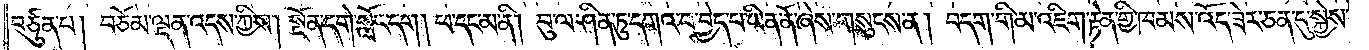བཙུན་པ། བཅོམ་ལྡན་འདས་ཀྱིས། སྔོན་དགེ་སློང་དག །ཕ་དང་མ་ནི། བུ་ལ་ཤིན་ཏུ་དགའ་བ་བྱེད་པ་ཡིན་ནོ་ཞེས་གསུངས་ན། བདག་གི་མ་འཇིག་རྟེན་གྱི་ཁམས་འོད་ཟེར་ཅན་དུ་སྐྱེས་
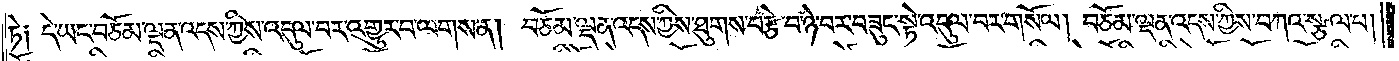ཏེ༑ དེ་ཡང་བཅོམ་ལྡན་འདས་ཀྱིས་འདུལ་བར་འགྱུར་བ་ལགས་ན། བཅོམ་ལྡན་འདས་ཀྱིས་ཐུགས་བརྩེ་བ་ཉེ་བར་བཟུང་སྟེ་འདུལ་བར་གསོལ། བཅོམ་ལྡན་འདས་ཀྱིས་བཀའ་སྩལ་པ།
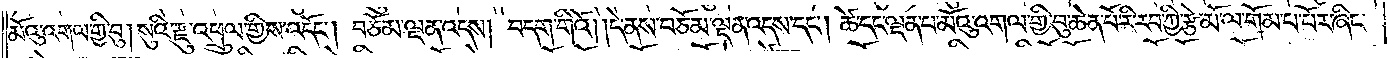མོའུ་འགལ་གྱི་བུ། སུའི་རྫུ་འཕྲུལ་གྱིས་འདོང༌། བཅོམ་ལྡན་འདས། བདག་གིའོ། །དེ་ནས་བཅོམ་ལྡན་འདས་དང༌། ཚེ་དང་ལྡན་པ་མོའུ་འགལ་གྱི་བུ་ཆེན་པོ་རི་རབ་ཀྱི་རྩེ་མོ་ལ་གོམ་པ་པོར་ཞིང་
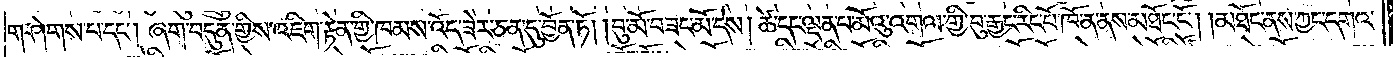གཤེགས་པ་དང༌། ཞག་བདུན་གྱིས་འཇིག་རྟེན་གྱི་ཁམས་འོད་ཟེར་ཅན་དུ་བྱོན་ཏོ། །བུ་མོ་བཟང་མོ་དེས། ཚེ་དང་ལྡན་པ་མོའུ་འགལ་གྱི་བུ་རྒྱང་རིང་པོ་ཁོ་ན་ནས་མཐོང་ངོ༌། །མཐོང་ནས་ཀྱང་དགའ་
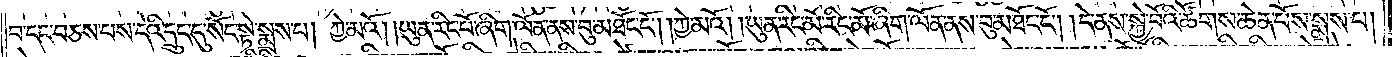བ་དང་བཅས་པས་དེའི་དྲུང་དུ་སོང་སྟེ་སྨྲས་པ། ཀྱེ་མའོ། །ཡུན་རིང་པོ་ཞིག་ལོན་ནས་བུ་མཐོང་ངོ༌། །ཀྱེ་མའོ། །ཡུན་རིང་མོ་རིང་མོ་ཞིག་ལོན་ནས་བུ་མཐོང་ངོ༌། །དེ་ནས་སྐྱེ་བོའི་ཚོགས་ཆེན་པོས་སྨྲས་པ།
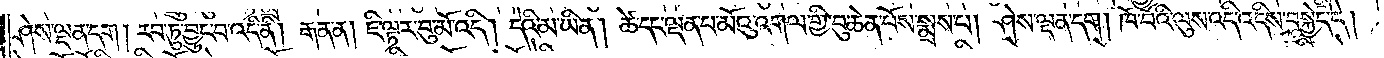ཤེས་ལྡན་དག །རབ་ཏུ་བྱུང་བ་འདི་ནི། རྒན་ན། ཇི་ལྟར་བུ་མོ་འདི། དེའི་མ་ཡིན། ཚེ་དང་ལྡན་པ་མོའུ་འགལ་གྱི་བུ་ཆེན་པོས་སྨྲས་པ། ཤེས་ལྡན་དག །ཁོ་བོའི་ལུས་འདི་འདིས་བསྐྱེད་དེ།
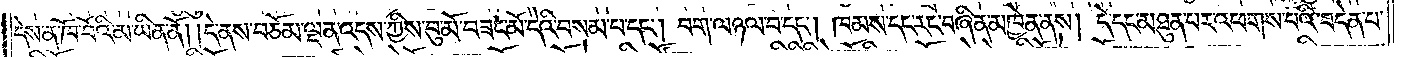དེས་ན་ཁོ་བོའི་མ་ཡིན་ནོ། །དེ་ནས་བཅོམ་ལྡན་འདས་ཀྱིས་བུ་མོ་བཟང་མོ་དེའི་བསམ་པ་དང༌། བག་ལ་ཉལ་བ་དང༌། ཁམས་དང་རང་བཞིན་མཁྱེན་ནས། དེ་དང་མཐུན་པར་འཕགས་པའི་བདེན་པ་
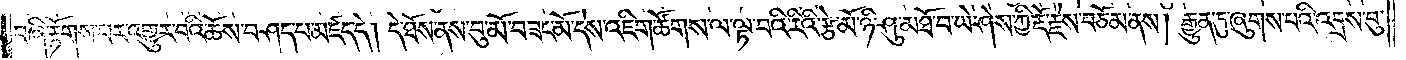བཞི་རྟོགས་པར་འགྱུར་བའི་ཆོས་བཤད་པ་མཛད་དེ། དེ་ཐོས་ནས་བུ་མོ་བཟང་མོ་དེས་འཇིག་ཚོགས་ལ་ལྟ་བའི་རིའི་རྩེ་མོ་ཉི་ཤུ་མཐོ་བ་ཡེ་ཤེས་ཀྱི་རྡོ་རྗེས་བཅོམ་ནས། རྒྱུན་དུ་ཞུགས་པའི་འབྲས་བུ་
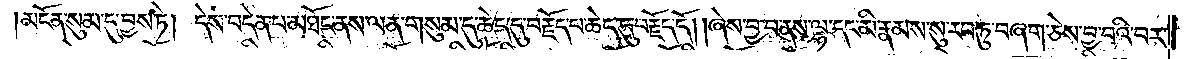མངོན་སུམ་དུ་བྱས་ཏེ། དེས་བདེན་པ་མཐོང་ནས་ལན་གསུམ་དུ་ཆེད་དུ་བརྗོད་པ་ཆེད་དུ་བརྗོད་དོ། །ཞེས་བྱ་བ་ནས་ལྷ་དང་མི་རྣམས་སུ་རབ་ཏུ་བཞག་ཅེས་བྱ་བའི་བར་
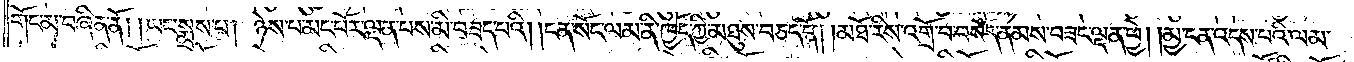གོང་མ་བཞིན་ནོ། །ཡང་སྨྲས་པ། ཉེས་པ་མང་པོར་ལྡན་པས་མི་བཟད་པའི། །ངན་སོང་ལམ་ནི་ཁྱོད་ཀྱི་མཐུས་བཅད་དོ། །མཐོ་རིས་འགྲོ་བ་བསོད་ནམས་བཟང་ལྡན་ཕྱེ། །མྱ་ངན་འདས་པའི་ལམ་
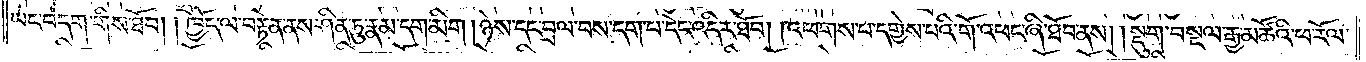ཡང་བདག་གིས་ཐོབ། །ཁྱོད་ལ་བརྟེན་ནས་ཤིན་ཏུ་རྣམ་དག་མིག །ཉེས་དང་བྲལ་བས་དག་པ་དེང་འདིར་ཐོབ། །འཕགས་པ་དགྱེས་པའི་གོ་འཕང་ཞི་ཐོབ་ནས། །སྡུག་བསྔལ་རྒྱ་མཚོའི་ཕ་རོལ་
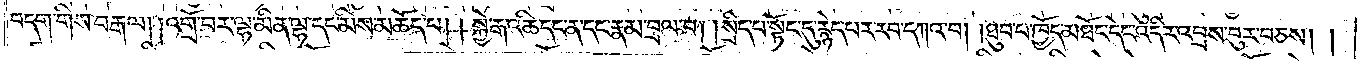བདག་གིས་བརྒལ། །འགྲོ་བར་ལྷ་མིན་ལྷ་དང་མིས་མཆོད་པ། །སྐྱེ་རྒ་འཆི་དང་ན་དང་རྣམ་བྲལ་བ། །སྲིད་པ་སྟོང་དུ་རྙེད་པར་རབ་དཀའ་བ། །ཐུབ་པ་ཁྱོད་མཐོང་དེང་འདིར་འབྲས་བུར་བཅས། །
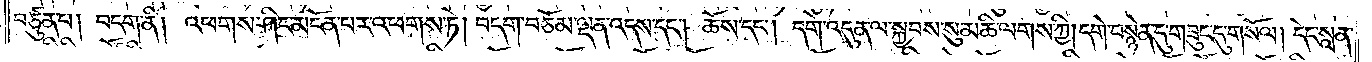བཙུན་པ། བདག་ནི། འཕགས་ཤིང་མངོན་པར་འཕགས་ཏེ། བདག་བཅོམ་ལྡན་འདས་དང༌། ཆོས་དང༌། དགེ་འདུན་ལ་སྐྱབས་སུ་མཆི་ལགས་ཀྱི། དགེ་བསྙེན་དུ་གཟུང་དུ་གསོལ། དེང་སླན་
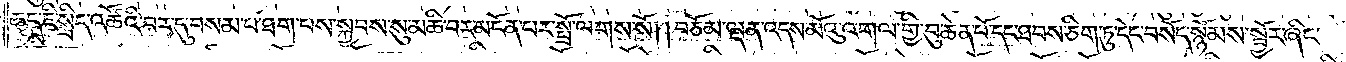ཆད་ཇི་སྲིད་འཚོའི་བར་དུ་བསམ་པ་ཐག་པས་སྐྱབས་སུ་མཆི་བར་མངོན་པར་སྤྲོ་ལགས་སོ། །བཅོམ་ལྡན་འདས་མོའུ་འགལ་གྱི་བུ་ཆེན་པོ་དང་ཐབས་ཅིག་ཏུ་དེང་བསོད་སྙོམས་སྦྱོར་ཞིང་
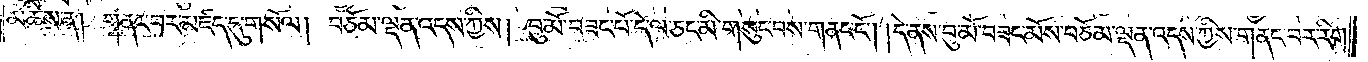མཆིས་ན། གནང་བར་མཛད་དུ་གསོལ། བཅོམ་ལྡན་འདས་ཀྱིས། བུ་མོ་བཟང་པོ་དེ་ལ་ཅང་མི་གསུང་བས་གནང་ངོ༌། །དེ་ནས་བུ་མོ་བཟང་མོས་བཅོམ་ལྡན་འདས་ཀྱིས་གནང་བར་རིག་
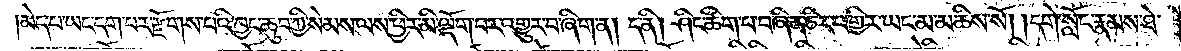མེད་པ་ཡང་དག་པར་རྫོགས་པའི་བྱང་ཆུབ་ཀྱི་སེམས་ལས་ཕྱིར་མི་ལྡོག་པར་འགྱུར་བ་ཞིག་ན། ད་ནི། ཤིང་ཚིག་པ་བཞིན་ཅིར་བགྱིར་ཡང་མ་མཆིས་སོ། །དགེ་སློང་རྣམས་ཐེ་
